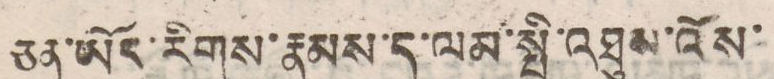ཅན་ཡོད་རིགས་རྣམས་ད་ལམ་སྤྱི་འཐུས་འོས་
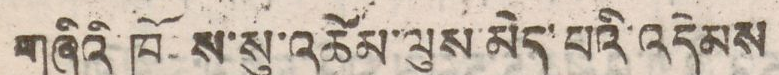གཞིའི ཁོངས་སུ་འཚེམ་ལུས་མེད་པའི་འདེམས
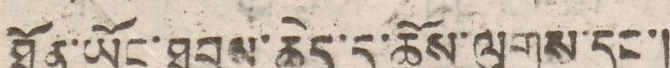ཐོན་ཡོང་ཐབས་ཆེད་དུ་ཆོས་ལུགས་དང་།
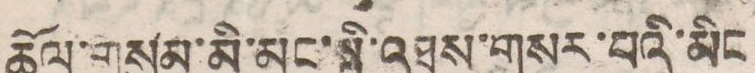ཆོལ་གསུམ་མི་མང་སྤྱི་འཐུས་གསར་བའི་མིང
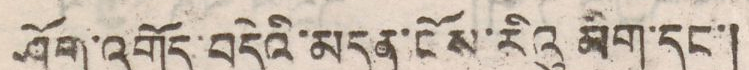ཤོག་འགོད་བདེའི་མདུན་ངོས་རིའུ མིག་དང་།
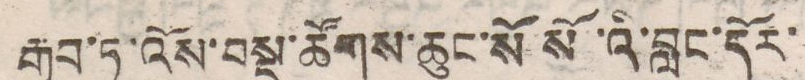རྒྱབ་ཏུ་འོས་བསྡུ་ཚོགས་ཆུང་སོ སོ་འི་བླང་དོར་
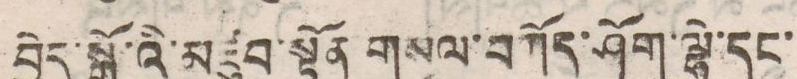བྱེད་སྒོ་འི་མཛུབ་སྟོན གསལ་བཀོད་ཤོག་ལྷེ་དང་
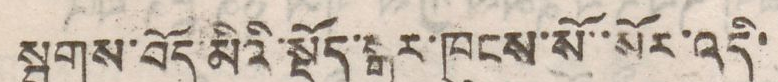སྦྲགས་བོད་མིའི་སྡོད་སྒར་ཁུངས་སོ་་སོར་འདི་
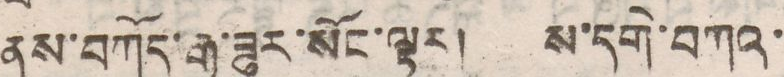ནས་བཀོད་རྒྱ་ཟུར་སོང་ལྟར། ས་དགེ་བཀའ་
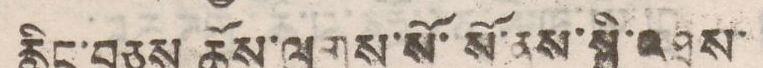རྙིང་བཅས ཆོས་ལུགས་སོ་སོ་ནས་སྤྱི་འཐུས་
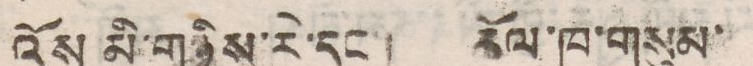འོས མི་གཉིས་རེ་དང་། ཆོལ་ཁ་གསུམ་
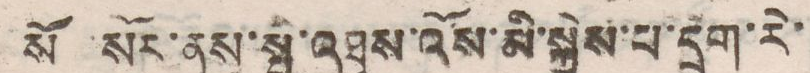སོ སོར་ནས་སྤྱི་འཐུས་འོས་མི་སྐྱེས་པ་དྲུག་རེ་
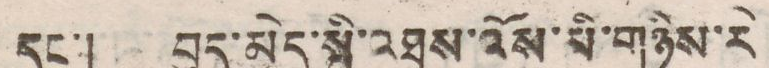དང་། བུད་མེད་སྤྱི་འཐུས་འོས་མི་གཉིས་རེ
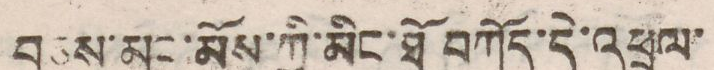བཅས་མང་མོས་ཀྱི་མིང་ཐོ བཀོད་དེ་འཕྲལ་
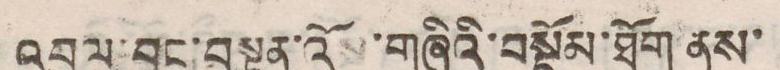འབུལ་བྱུང་བསྟུན་འོས་གཞིའི་བསྡོམ་ཐོག ནས་
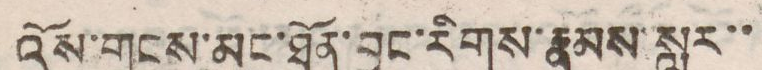འོས་གྲངས་མང་ཐོན་བྱུང་རིགས་རྣམས་སླར་་
